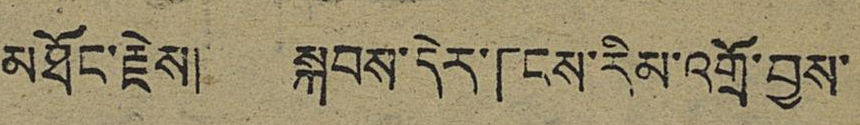མཐོང་རྗེས། སྐབས་དེར་「ངས་རིམ་འགྲོ་བྱས་
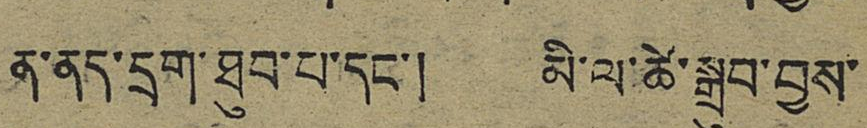ན་ནད་དྲག་ཐུབ་པ་དང་། མི་ལ་ཚེ་སྒྲུབ་བྱས་
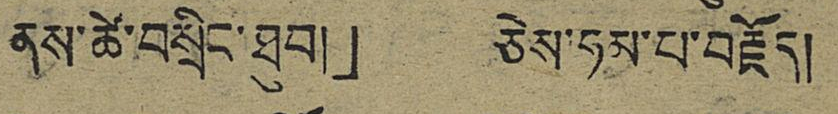ནས་ཚེ་བསྲིང་ཐུབ།」 ཅེས་ཧམ་པ་བརྗོད།
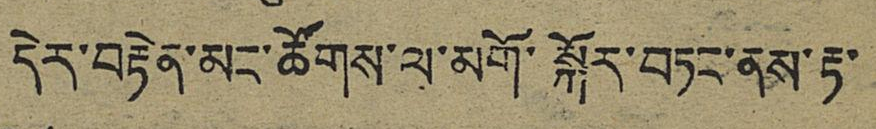དེར་བརྟེན་མང་ཚོགས་ལ་མགོ་སྐོར་བཏང་ནས་རྟ་
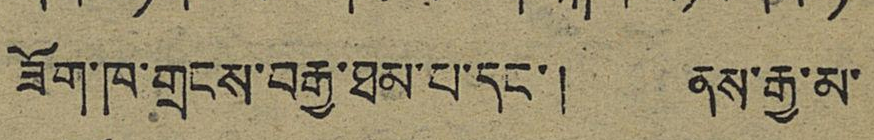ཟོག་ཁ་གྲངས་བརྒྱ་ཐམ་པ་དང་། ནས་རྒྱ་མ་
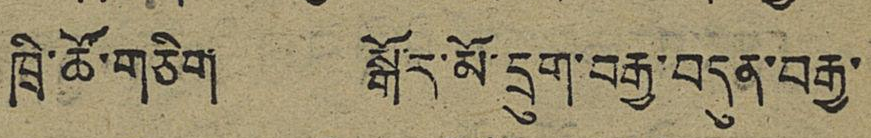ཁྲི་ཚོ་གཅིག སྒོར་མོ་དྲུག་བརྒྱ་བདུན་བརྒྱ་
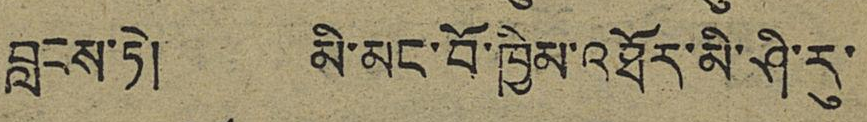བླངས་ཏེ། མི་མང་བོ་ཁྱིམ་འཐོར་མི་ཤི་རུ་
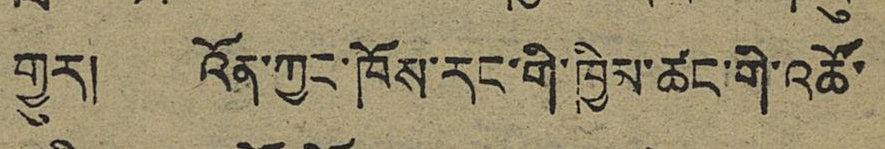གྱུར། འོན་ཀྱང་ཁོས་རང་གི་ཁྱིམ་ཚང་གི་འཚོ་
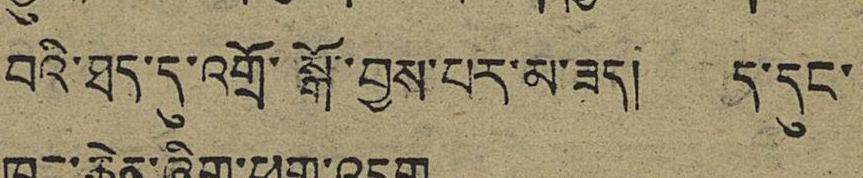བའི་ཐད་དུ་འགྲོ་སྒོ་བྱས་པར་མ་ཟད། ད་དུང་
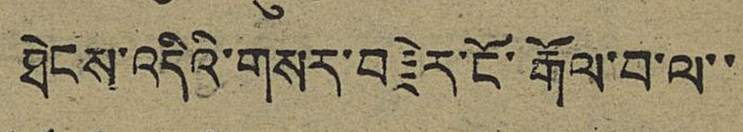ཐེངས་འདིའི་གསར་བརྗེར་ངོ་རྒོལ་བ་ལ་་
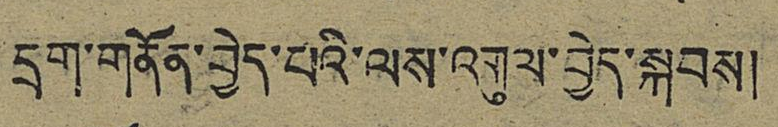དྲག་གནོན་བྱེད་པའི་ལས་འགུལ་བྱེད་སྐབས།
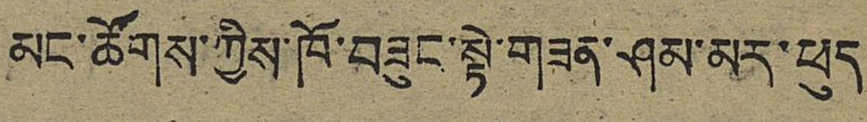མང་ཚོགས་ཀྱིས་ཁོ་བཟུང་སྟེ་གཟན་ཤམ་མར་ཕུད
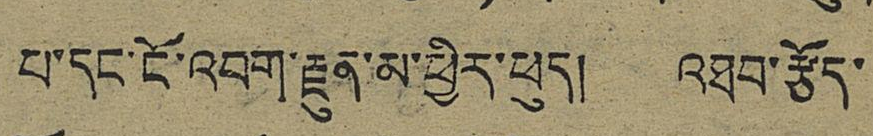པ་དང་ངོ་འབག་རྫུན་མ་ཕྱིར་ཕུད། འཐབ་རྩོད་
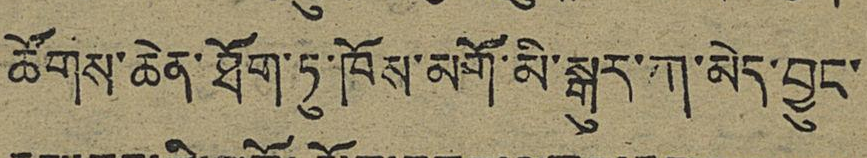ཚོགས་ཆེན་ཐོག་ཏུ་ཁོས་མགོ་མི་སྒུར་ཀ་མེད་བྱུང་
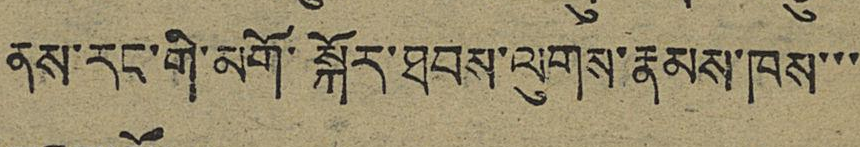ནས་རང་གི་མགོ་སྐོར་ཐབས་ལུགས་རྣམས་ཁས་་་
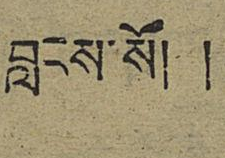བླངས་སོ། །
